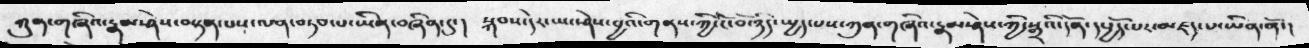ཀུན་གཞའ་རྣམ་ཤེས་བསྟན་པས་ལན་བཏབ་པ་ཡིན་བཞིན་དུ་།  སྐབས་དེར་ཡང་ཤེས་བྱའི་གནས་ཀྱི་ངོ་བོ་ཉིད་སྤྱད་པས་ཀུན་གཞིའ་རྣམ་ཤེས་ཀྱི་སྒྲའི་དོན་དཔྱོད་པར་མཛད་པ་ཡིན་ནོ་།
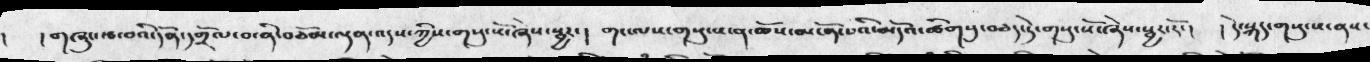།  །གཞུང་རྩ་བའི་དོན་དགྲོལ་བ་ནི་བཅོམ་ལྡན་འདས་ཀྱིས་གསུངསོ་ཞེས་སྦྱར་།  གང་ལས་གསུངས་ན་ཆོས་མངོན་པའི་མདོའ་ཚིགསུ་བཅད་དེ་གསུངསོ་ཞེས་སྦྱར་རོ་།  །དེ་སྐད་གསུངས་ནས་
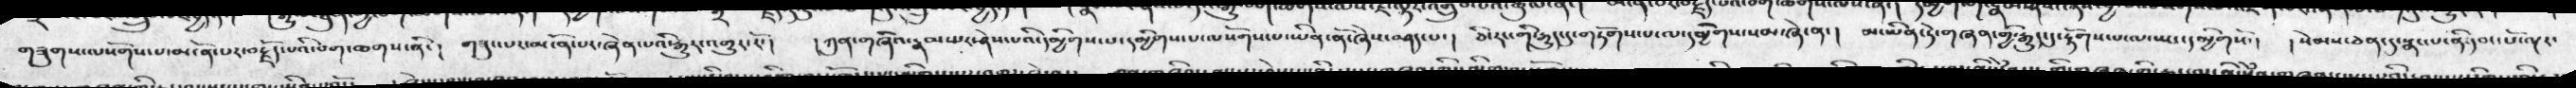གཟུགས་ལསོགས་པ་མངོན་པར་བརྗོད་པའི་བག་ཆགས་ནི་།  གཟུང་པར་མངོན་པར་ཞེན་པའི་རྒྱུར་འགྱུར་རོ་།  ། ཀུན་གཞིའ་རྣམས་པར་ཤེས་པའི་དམྱིགས་པ་དམྱིགས་པ་ལསོགས་པ་ཡིན་ནོ་ཞེས་བཤད་པ་།  ཅི་རང་གི་རྒྱུད་དུ་གཏོགས་པ་ལ་དམྱིགས་སམ་ཞེ་ན་།  མ་ཡིན་དེ་གཞན་གྱི་རྒྱུད་དུ་རྟོགས་པ་ལ་ཡང་དམྱིགསོ་།  ། སེམས་ཅན་དུ་སྣང་པ་ནི་དབང་པོ་ལྔར་
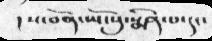།ས་བོན་ཡོངསུ་སྨིན་པ་དང་
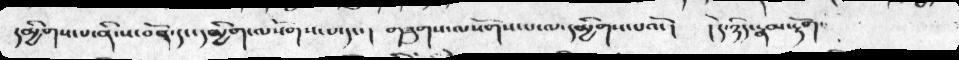དམྱིགས་པ་ནི་ས་བོན་དང་དམྱིག་ལསོགས་པ་དང་།  གཟུགས་ལསོགས་པ་ལ་དམྱིགས་པའོ་། །དེ་ཉིད་རྣམ་རྟོག་
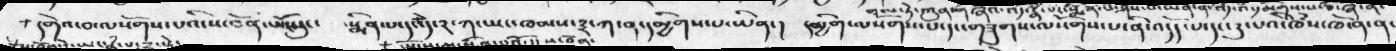+དགེ་བ་ལསོགས་པའི་ས་བོན་ཡོངསུ་  སྨིན་པ་དང་དེ་༢་ཀ་ཡང་ཁམས་༣་ཀ་ན་དམྱིགས་པ་ཡིན་།  དམྱིག་ལསོགས་པ་དང་གཟུགས་ལསོགས་པ་ནི་འདོད་པ་དང་དུ་པའི་ཁཾས་ཁོ་ན་ན་
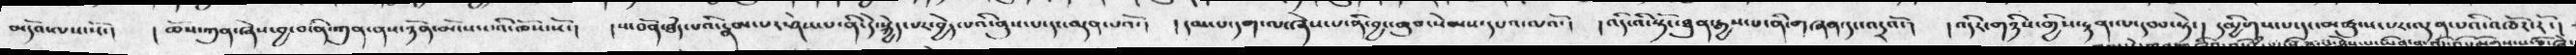མདོའ་ལས་སོ་། ། ཆོས་ཀུན་ཞེས་་བྱ་བ་ནི་ཀུན་ནས་ཉོན་མོངས་པའི་ཆོས་སོ་།  །ས་བོན་ཐཾད་པའི་རྣམ་པར་ཤེས་པ་ནི་དེ་སྐྱེད་པར་བྱེད་པའི་ནུས་པ་དང་ལྡན་པའོ་།  ། དམ་པ་དག་ལ་ཞེས་པ་ནི་བྱང་ཆུབ་སེམས་དཔའ་ལའོ་།  ། འདི་འི་སྟོང་ཐུན་རྒྱས་པ་ནི་གཞན་དང་དང་འདྲའོ་།  ། འདིར་གཉིས་གྱིས་རྟན་ལ་དབབ་སྟེ་།  དམྱིགས་པ་དང་མཚུངས་པར་ལྡན་པའི་འཁོར་ར་ོ།
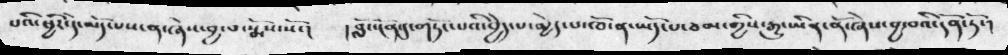པའི་ཕྱིར་དེ་མོད་པས་ན་ཞེས་བྱ་བ་སྨོས་སོ་།  །བློ་ངན་དུ་གཏོང་པའི་བྱེད་པ་མྱེད་པ་ཁོ་ན་ཡོད་པ་ཙམ་གྱིས་རྒྱུ་ཡིན་ནོ་ཞེས་བྱ་བའི་དོན་ཏོ་།
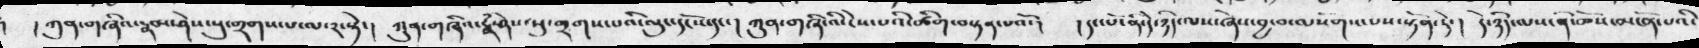།ཀུན་གཞིའ་རྣམ་ཤེས་སུ་གྲགས་པ་ལ་༢་སྟེ་། ཀུན་གཞིའ་རྣམ་ཤེས་སུ་གྲགས་པའི་ལུང་དངོས་དང་། ཀུན་གཞི་འི་ངེས་པའི་ཚིག་བསྟན་པའོ་།  །དང་པོ་ནི་དེ་ཉིད་ལས་ཞེས་བྱ་བ་ལསོགས་པས་སྟོན་ཏེ་། དེ་ཉིད་ལས་ནི་ཆོས་མངོན་པའི་
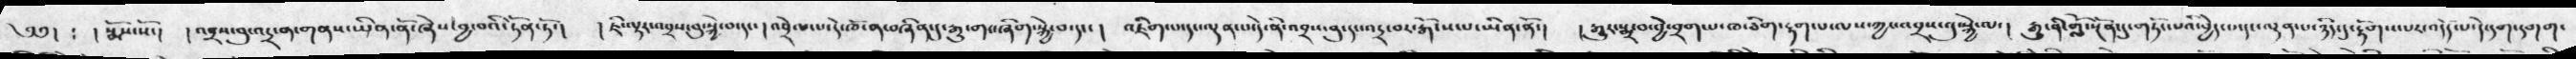༄༅། ༴ །སྨོས་སོ་། །འབྲས་བུ་འདྲ་ན་གནས་ཡིན་ནོ་ཞེས་བྱ་བའི་དོན་ཏོ་།  །ཇི་ལྟར་འབྲས་བུ་སྐྱེ་བ་དང་། འབྲེལ་བ་དེ་ཁོ་ན་བཞིན་དུ་རྒྱུ་གང་ཞིག་སྐྱེ་བ་དང་། འཇིག་པ་དང་ལྡན་པ་དེ་ནི་འབྲས་བུ་དང་འདྲ་བར་རྒོངས་པ་ཡིན་ནོ་། །རྒྱུར་སྨྲ་བ་བྱེ་བྲག་པ་ཁ་ཅིག་རྟག་པ་ལས་ཀྱང་འབྲས་བུ་སྐྱེ་ལ་།  རྒྱུ་ནི་གློ་སྔོན་དུ་གཏོང་པའི་བྱེད་པ་དང་ལྡན་པ་ཉིད་དུ་རྟོགས་པར་འདོད་པ་དེ་དག་དགག་
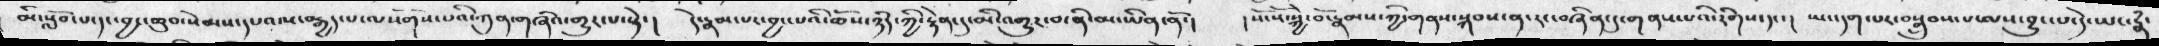མི་སློབ་པ་དང་བྱང་ཆུབ་སེམས་དཔའ་བརྒྱད་པ་ལ་སོགས་པའི་ཀུན་གཞིའ་གྱུར་པ་སྟེ་། དེ་རྣམ་པར་བྱང་པའི་ཆོས་ཉིད་ཀྱི་རྟེན་དུ་མི་འགྱུར་བ་ནི་མ་ཡིན་ནོ་།  །སོ་སོ་སྐྱེ་བོ་རྣམས་ཀྱི་གནས་སྐབས་ན་རང་བཞིན་དུ་གནས་པའི་རིགས་དང་།  ཡང་དག་པར་བསྒྲུབ་པ་ལས་བྱུང་པ་དེ་ཡང་རྣཾ་
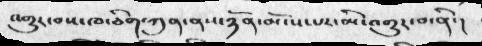འགྱུར་བས་ཁ་ཅིག་ཀུན་ནས་ཉོན་མོངས་པར་མི་འགྱུར་བ་ནི་།
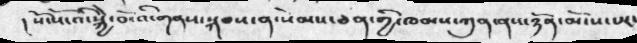། སོ་སོ་འི་སྐྱེ་བོ་འི་གནས་སྐབས་ན་སེམས་ཅན་གྱི་ཁམས་ཀུན་ནས་ཉོན་མོངས་པར་
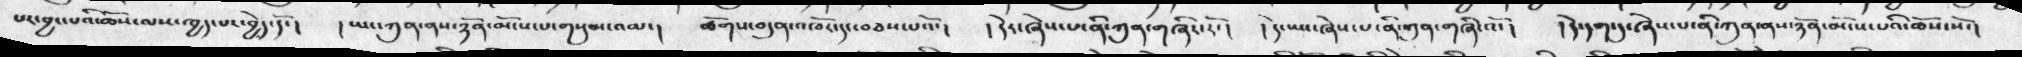པར་བྱང་པའི་ཆོས་ལས་ཁྱད་པར་བྱེད་དོ་།  །ཡང་ཀུན་ནས་ཉོན་མོངས་པ་གསུམ་འམ་། ཚོགས་བདུན་འཁོར་དང་བཅས་པའོ་།  །དེར་ཞེས་པ་ནི་ཀུན་གཞིར་རོ་།  །དེ་ཡང་ཞེས་པ་ནི་ཀུན་གཞི་འོ་། །དེ་དག་དུ་ཞེས་པ་ནི་ཀུན་ནས་ཉོན་མོངས་པའི་ཆོས་སོ་།
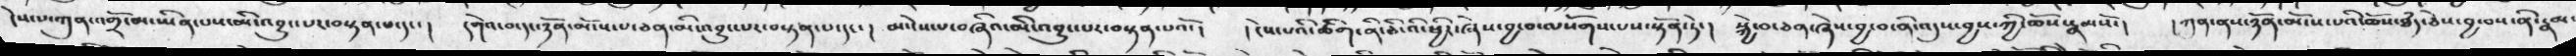ངེས་པ་ཀུན་འགྲོ་མ་ཡིན་པས་མི་འབྱུང་པར་བསྟན་པ་དང་།  དགེའ་བ་དང་ཉོན་མོངས་པ་ཅན་མི་འབྱུང་པར་བསྟན་པ་དང་། མ་ངེས་པ་བཞིའ་མི་འབྱུང་པར་བསྟན་པའོ་། །ངེས་པའི་ཚིག་ནི་ཅི་འི་ཕྱིར་ཞེས་བྱ་བ་ལསོགས་པས་སྟོན་ཏེ་། སྐྱེ་བ་ཅན་ཞེས་བྱ་བ་ནི་འདུས་བྱས་ཀྱི་ཆོས་རྣམསོ་།  །ཀུན་ནས་ཉོན་མོངས་པའི་ཆོས་ཐཾད་ཅེས་བྱ་བས་ནི་རྣམ་
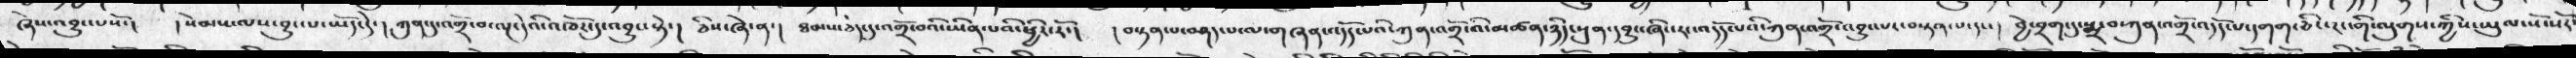ཞེས་འབྱུང་པསོ་།  །སེམས་ལས་བྱུང་པ་ཡོད་དེ་། ཀུན་དུ་འགྲོ་བ་ལྔ་དེའི་འཁོར་དུ་འབྱུང་སྟེ་། ཅིས་ཞེ་ན་། ཐམས་ཅད་དུ་འགྲོ་བའི་ཡིན་པའི་ཕྱིར་རོ་། །བསྟན་པ་བཤད་པ་ལ་གཞན་འདོད་པའི་ཀུན་འགྲོ་འི་མཚན་ཉིད་སུན་དབྱུང་ཞིང་རང་འདོད་པའི་ཀུན་འགྲོ་འབྱུང་པར་བསྟན་པ་དང་།  བྱེ་བྲག་དུ་སྨྲ་བ་ཀུན་འགྲོ་འདོད་པ་དགག་ཅིང་རང་གི་ལུགས་ཀྱིས་ཡུལ་སོ་སོར་
